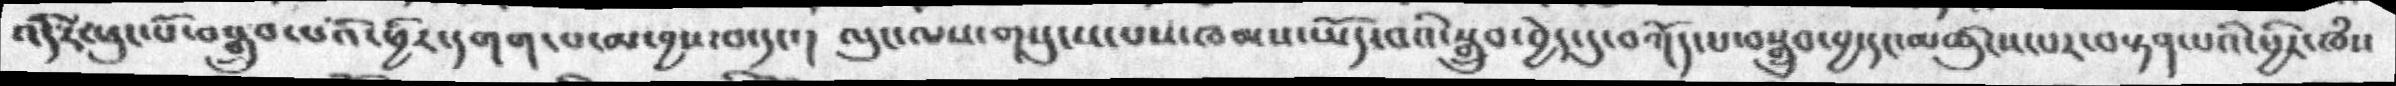འདིར་ཕུང་པོ་བསྒྲུབ་པའི་ཕྱིར་དགག་པ་མ་བྱས་བ་དང་།  ལུང་ལས་གསུངས་པས་ཁམས་ཡོད་པའི་སྒྲུབ་བྱེད་དུ་བཀོད་པ་བསྒྲུབ་བྱ་དང་མཚུངས་པར་བསྟན་པའི་ཕྱིར་ཁཾས
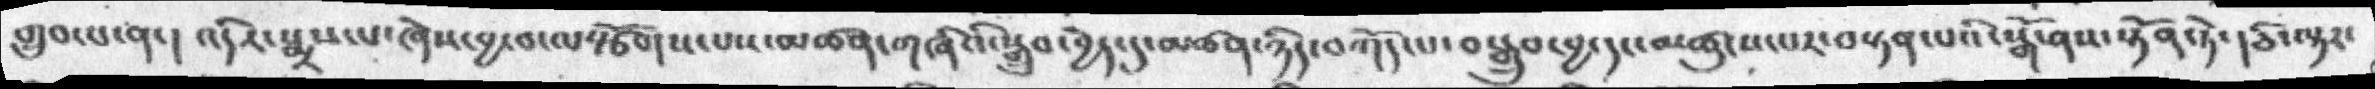གྲུབ་པ་ན་།  འདིར་སྨྲས་པ་ཞེས་བྱ་བ་ལསྩོགས་པས་མཚན་གཞིའི་སྒྲུབ་བྱེད་དུ་མཚན་ཉིད་བཀོད་པ་བསྒྲུབ་བྱ་དང་མཚུངས་པར་བསྟན་པའི་སྒོ་ནས་སྟོན་ཏེ་། ཅི་ལྟར་
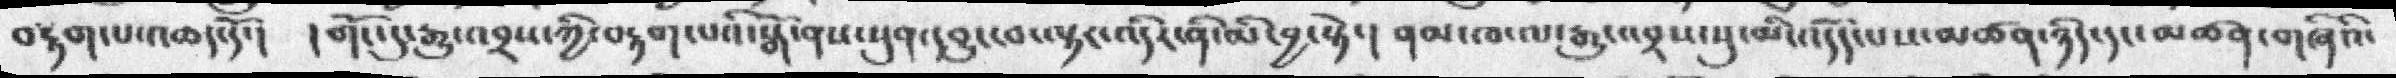བརྟག་པ་འཆད་དོ་།  །གོང་དུ་རྒྱུ་འབྲས་ཀྱི་བརྟག་པའི་སྒོ་ནས་སུན་དབྱུང་བ་ལྟར་འདིར་ནི་མི་བྱ་སྟེ་། ནམ་ཁ་ལ་རྒྱུ་འབྲས་སུ་མི་འདོད་པས་མཚན་ཉིད་དང་མཚན་གཞིའི་
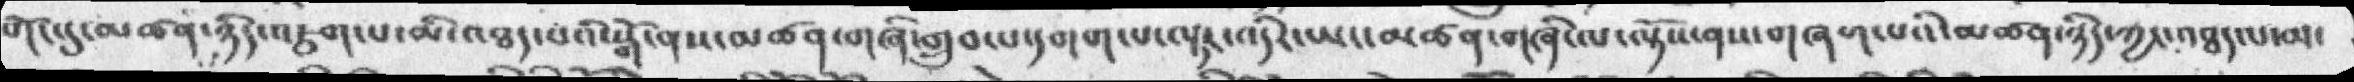གོང་དུ་མཚན་ཉིད་འཇུག་པ་མི་འཐད་པའི་སྒོ་ནས་མཚན་གཞི་གྲུབ་པ་དགག་པ་ལྟར་འདིར་ཡང་མཚན་གཞི་ལ་ལྟོས་ནས་གཞག་པའི་མཚན་ཉིད་ཀྱང་འཐད་པ་མ་
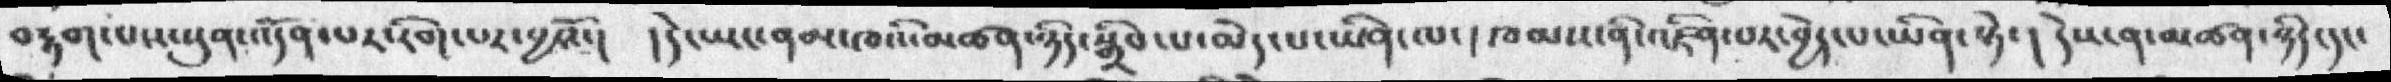བརྟག་པས་སུན་འདོན་པར་རིག་པར་བྱའོ་།  །དེ་ཡང་ནམ་ཁའི་མཚན་ཉིད་སྒྲིབ་པ་མེད་པ་ཡིན་ལ་།  ཁམས་ནི་འཛིན་པར་བྱེད་པ་ཡིན་སྟེ་།  དེས་ན་མཚན་ཉིད་དང་
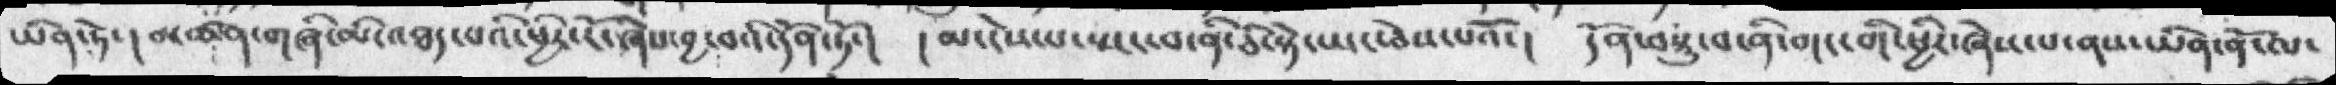ཡིན་ཏེ་། མཚན་གཞི་མི་འཐད་པའི་ཕྱིར་རོ་ཞེས་བྱ་བའི་དོན་ཏོ་།  །མ་ངེས་པ་སྤང་བ་ནི་ཅི་སྟེ་ཡང་ཅེས་པའོ་། དོན་བསྡུ་བ་ནི་གང་གི་ཕྱིར་ཞེས་པ་ནས་ཡིན་ན་ོལ་
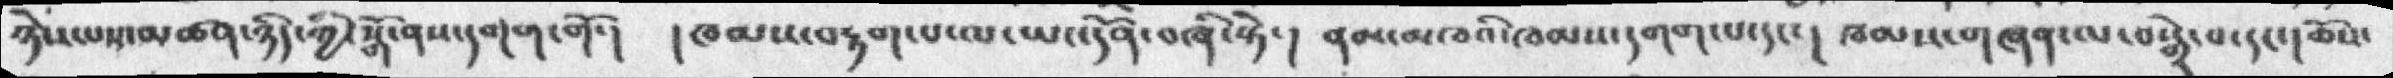ཉེས་པས་མཚན་ཉིད་ཀྱི་སྒོ་ནས་དགག་གོ་། །ཁམས་བརྟག་པ་ལ་ཡང་དོན་བཞི་སྟེ་། ནམ་མཁའི་ཁམས་དགག་པ་དང་། ཁམས་གཞན་ལ་བསྒྲེ་བ་དང་།ཆོས་
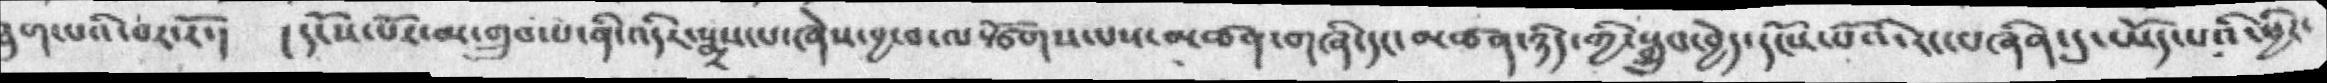དྲུག་པའི་བར་རོ་།    །དངོས་པོར་མ་གྲུབ་པ་ནི་འདིར་སྨྲས་པ་ཞེས་བྱ་བ་ལསྩོགས་པས་མཚན་གཞི་དང་མཚན་ཉིད་གྱི་སྒྲུབ་བྱེད་དངོས་པོའི་རང་བཞིན་དུ་ཡོད་པའི་ཕྱིར་
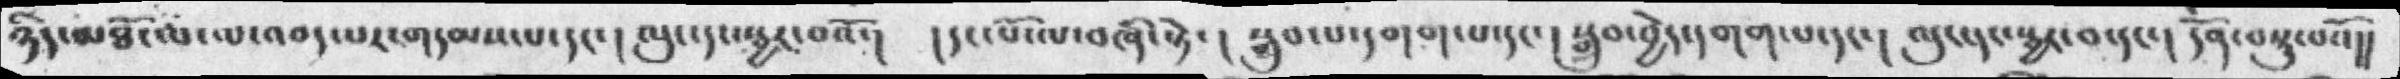ཉིད་མཐོང་བ་ལ་འབད་པར་གདམས་པ་དང་། ལུང་དང་སྦྱར་བའོ་།   །དང་པོ་ལ་བཞི་སྟེ་ ། སྒྲུབ་པ་དགག་པ་དང་ ། སྒྲུབ་བྱེད་དགག་པ་དང་།   ལུང་དང་སྦྱར་བ་དང་། དོན་བསྡུ་བའོ།།
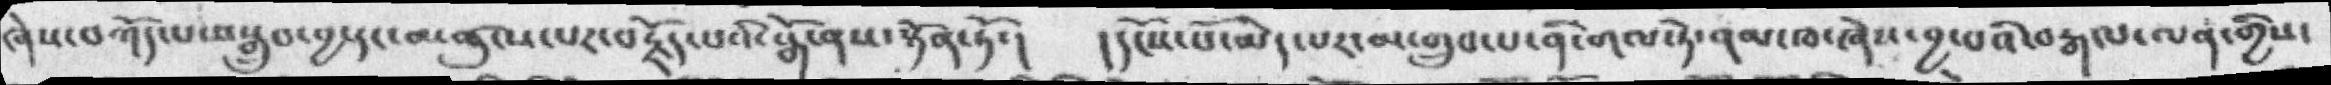ཞེས་བཀོད་པ་བསྒྲུབ་བྱ་དང་མཚུངས་པར་བརྗོད་པའི་སྒོ་ནས་སྟོན་ཏོ་།     །དངོས་པོ་མེད་པར་མ་གྲུབ་པ་ནི་གལ་ཏེ་ནམ་ཁ་ཞེས་བྱ་བའི་བརྒལ་ལན་གྱིས་
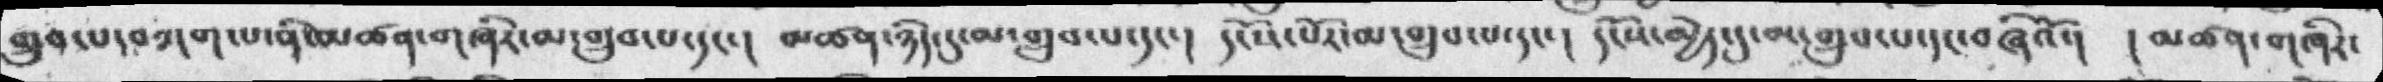གྲུབ་པ་བཀག་པ་ནི་མཚན་གཞིར་མ་གྲུབ་པ་དང་།    མཚན་ཉིད་དུ་མ་གྲུབ་པ་དང་།  དངོས་པོར་མ་གྲུབ་པ་དང་།  དངོས་མྱེད་དུ་མ་གྲུབ་པ་དང་བཞིའོ་།   །མཚན་གཞིར་
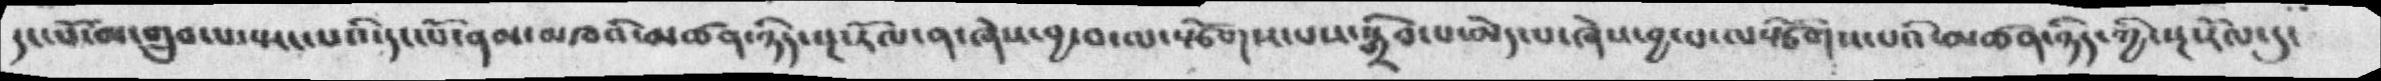དང་པོ་མ་གྲུབ་པ་སྤང་པའི་ནམ་མཁའི་མཚན་ཉིད་སྔ་རོལ་ན་ཞེས་བྱ་བ་ལསྩོགས་པས་སྒྲིབ་པ་མེད་པ་ཞེས་བྱ་བ་ལསྩོགས་པའི་མཚན་ཉིད་ཀྱི་སྔ་རོལ་དུ་
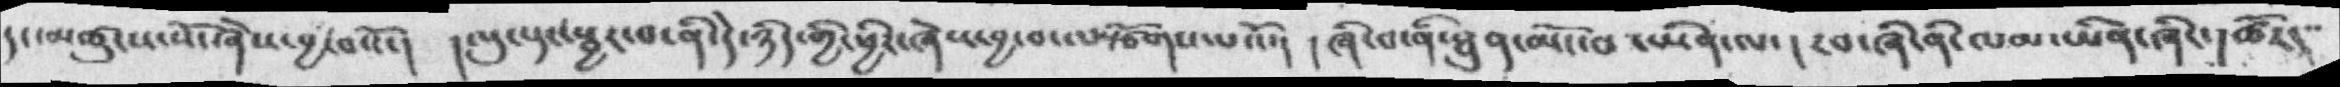དང་མཚུངས་སོ་ཞེས་བྱ་བའོ་།  །ལུང་དང་སྦྱར་བ་ནི་དེ་ཉིད་གྱི་ཕྱིར་ཞེས་བྱ་བ་ལསྩོགས་པའོ་།     །ཞི་བ་ནི་ཐུན་མོང་བ ་ཡིན་ལ་། རབ་ཞི་ནི་ལམ་ཡིན་ཞིང་། ཚོར།
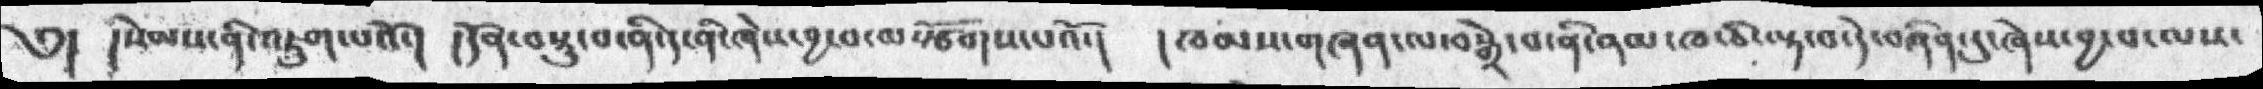༄།  །སེམས་ནི་འཇུག་པའོ་།  །དོན་བསྡུ་བ་ནི་ད་ནི་ཞེས་བྱ་བ་ལསྩོགས་པའོ་།  ། ཁམས་གཞན་ལ་བསྒྲེ་བ་ནི་ནམ་ཁ་ཅི་ལྟ་བ་དེ་བཞིན་དུ་ཞེས་བྱ་པ་ལས་
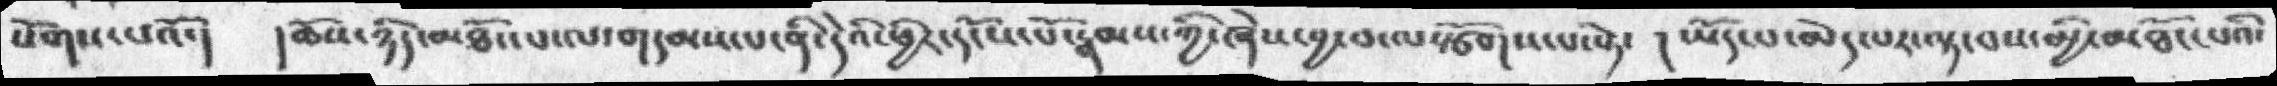སོགས་པའོ་།  །ཆོས་ཉིད་མཐོང་པ་ལ་གདམས་པ་ནི་དེའི་ཕྱིར་དངོས་པོ་རྣམས་ཀྱེ་ཞེས་བྱ་བ་ལསྩོགས་པ་སྟེ་  །  ཡོད་པ་མེད་པར་ལྟ་བས་མྱི་མཐོང་པའི་
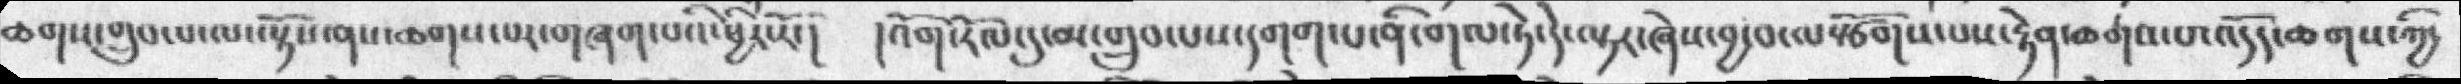ཆགས་གྲུབ་པ་ལ་སྟོས་ནས་ཆགས་པར་གཞག་པའི་ཕྱིར་རོ་།  །འོག་རོལ་དུ་མ་གྲུབ་པས་དགག་པ་ནི་གལ་ཏེ་དེ་ལྟར་ཞེས་བྱ་བ་ལསྩོགས་པས་རྟེན་ཆགས་པ་འདོད་ཆགས་ཀྱི་
